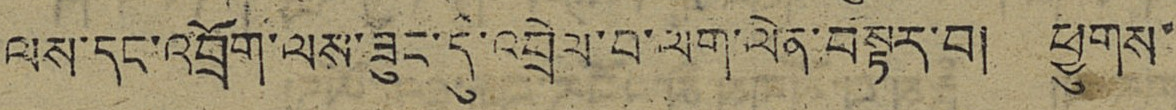ལས་དང་འབྲོག་ལས་ཟུང་དུ་འབྲེལ་བ་ལག་ལེན་བསྟར་བ། ཕྱུགས་
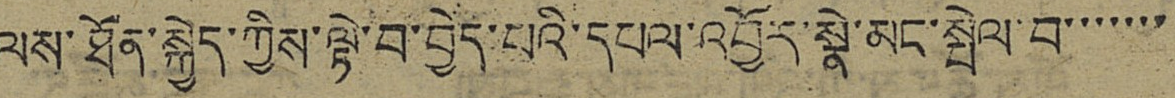ལས་ཐོན་སྐྱེད་ཀྱིས་ལྟེ་བ་བྱེད་པའི་དཔལ་འབྱོར་སྣེ་མང་སྤེལ་བ་་་་་་་
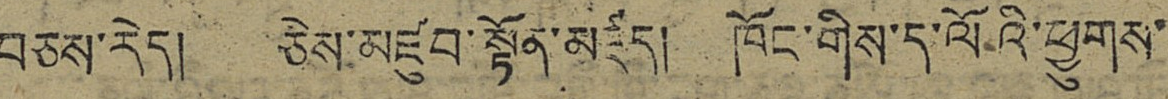བཅས་རེད། ཅེས་མཛུབ་སྟོན་མཛད། ཁོང་གིས་ད་ལོའི་ཕྱུགས་
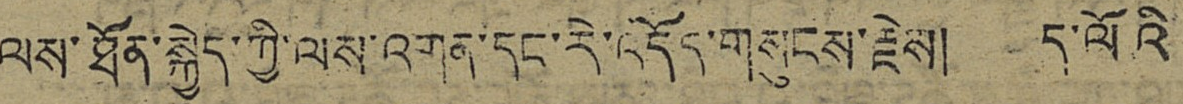ལས་ཐོན་སྐྱེད་ཀྱི་ལས་འགན་དང་རེ་འདོད་གསུངས་རྗེས། ད་ལོའི
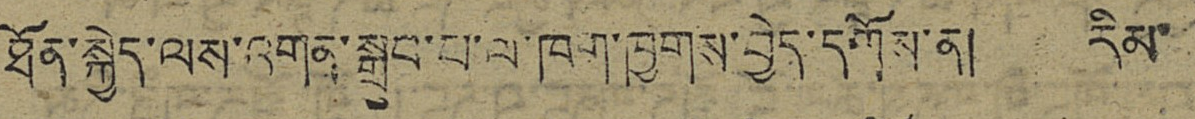ཐོན་སྐྱེད་ལས་འགན་སྒྲུབ་པ་ལ་ཁག་ཁྱགས་བྱེད་དགོས་ན། རིམ་
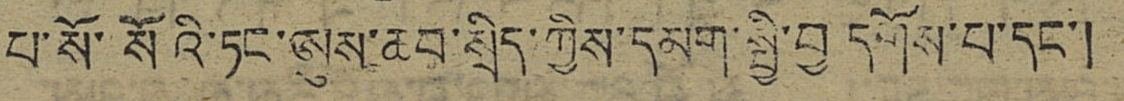པ་སོ་སོའི་ཏང་ཨུས་ཆབ་སྲིད་ཀྱིས་དམག་སྤྱི་བྱ དགོས་པ་དང་།
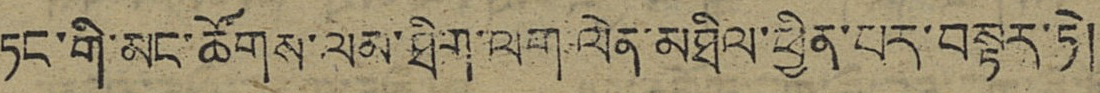ཏང་གི་མང་ཚོགས་ལམ་ཐིག་ལག ལེན་མཐིལ་ཕྱིན་པར་བསྟར་ཏེ།
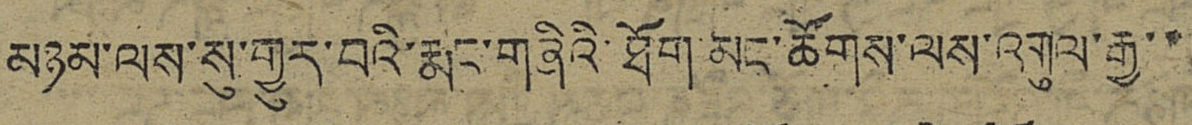མཉམ་ལས་སུ་གྱུར་བའི་རྨང་གཞིའི་ཐོག་མང་ཚོགས་ལས་འགུལ་རྒྱ་་
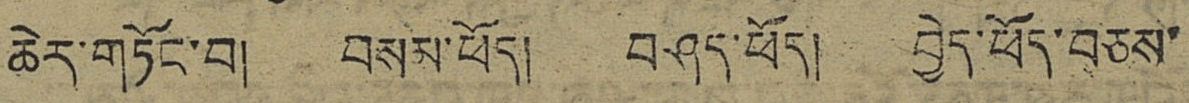ཆེར་གཏོང་བ། བསམ་ཕོད། བཤད་ཕོད། བྱེད་ཕོད་བཅས་
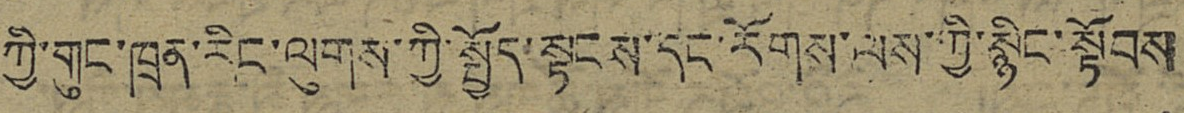ཀྱི་གུང་ཁྲན་རིང་ལུགས་ཀྱི་སྤྱོད་སྟངས་དང་རོགས་ལས་ཀྱི་སྙིང་སྟོབས
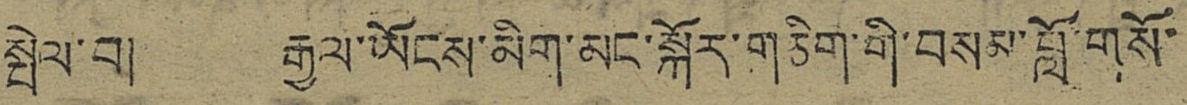སྤེལ་བ། རྒྱལ་ཡོངས་མིག་མང་སྐོར་གཅིག་གི་བསམ་བློ་གསོ་
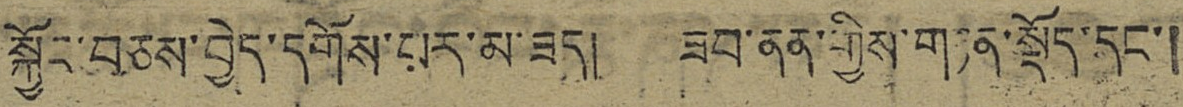སྐྱོང་བཅས་བྱེད་དགོས་པར་མ་ཟད། ཟབ་ནན་གྱིས་གཏན་སྡོད་དང་།
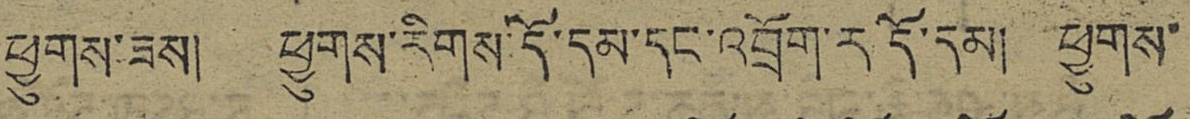ཕྱུགས་ཟས། ཕྱུགས་རིགས་དོ་དམ་དང་འབྲོག་ར་དོ་དམ། ཕྱུགས་
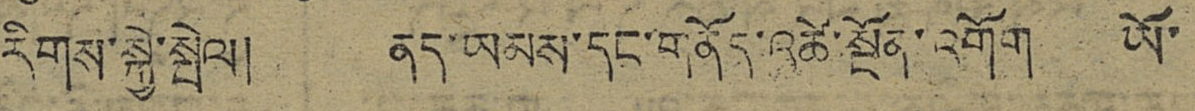རིགས་སྐྱེ་སྤེལ། ནད་ཡམས་དང་གནོད་འཚེ་སྔོན་འགོག ཡོ་
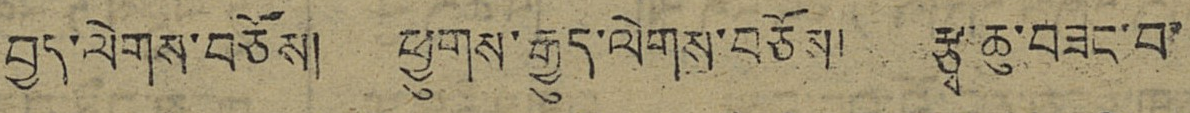བྱད་ལེགས་བཅོས། ཕྱུགས་རྒྱུད་ལེགས་བཅོས། རྩྭ་ཆུ་བཟང་བ་
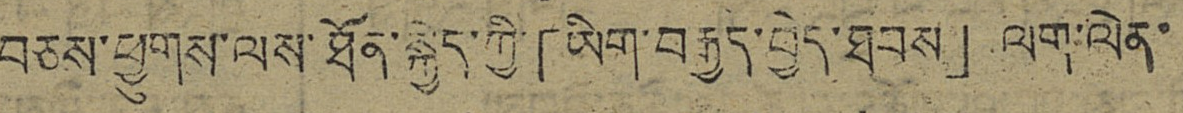བཅས་ཕྱུགས་ལས་ཐོན་སྐྱེད་ཀྱི་「ཡིག་བརྒྱད་ཕྱེད་ཐབས」ལག་ལེན་
